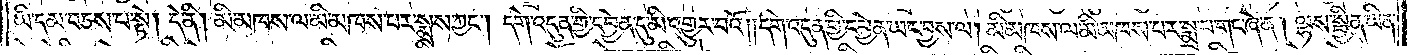ཡི་དམ་བཅས་པ་སྟེ། དེ་ནི། མི་མཁས་ལ་མི་མཁས་པར་སྨྲས་ཀྱང༌། དགེ་འདུན་གྱི་དབྱེན་དུ་མི་འགྱུར་བའོ། །དགེ་འདུན་གྱི་དབྱེན་ཡང་བྱས་ལ། མི་མཁས་ལ་མི་མཁས་པར་སྨྲ་བ་གང་ཞེ་ན། ལྷས་སྦྱིན་ཡིན་
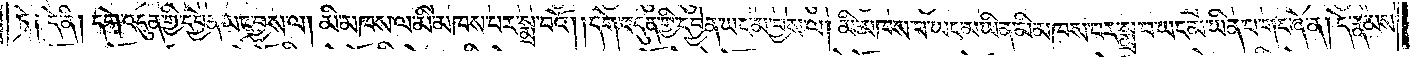ཏེ༑ དེ་ནི། དགེ་འདུན་གྱི་དབྱེན་ཡང་བྱས་ལ། མི་མཁས་ལ་མི་མཁས་པར་སྨྲ་བའོ། །དགེ་འདུན་གྱི་དབྱེན་ཡང་མ་བྱས་ལ། མི་མཁས་པ་ཡང་མ་ཡིན་མི་མཁས་པར་སྨྲ་བ་ཡང་མ་ཡིན་པ་གང་ཞེ་ན། དེ་རྣམས་
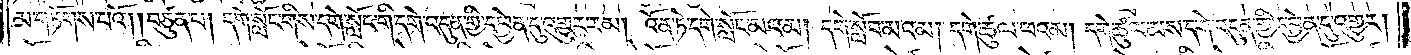མ་གཏོགས་པའོ། །བཙུན་པ། དགེ་སློང་གིས་དགེ་སློང་གི་དགེ་འདུན་གྱི་དབྱེན་དུ་འགྱུར་རམ། འོན་ཏེ་དགེ་སློང་མའམ། དགེ་སློབ་མའམ། དགེ་ཚུལ་ཕའམ། དགེ་ཚུལ་མས་དགེ་འདུན་གྱི་དབྱེན་དུ་འགྱུར།
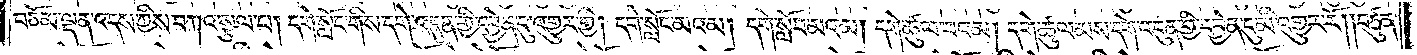བཅོམ་ལྡན་འདས་ཀྱིས་བཀའ་སྩལ་པ། དགེ་སློང་གིས་དགེ་འདུན་གྱི་དབྱེན་དུ་འགྱུར་གྱི། དགེ་སློང་མའམ། དགེ་སློབ་མའམ། དགེ་ཚུལ་ཕའམ། དགེ་ཚུལ་མས་དགེ་འདུན་གྱི་དབྱེན་དུ་མི་འགྱུར་རོ། །བཙུན་
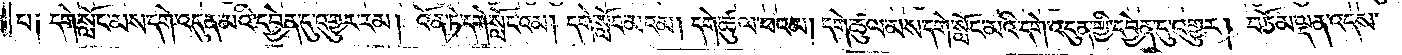པ། དགེ་སློང་མས་དགེ་འདུན་མའི་དབྱེན་དུ་འགྱུར་རམ། འོན་ཏེ་དགེ་སློང་འམ། དགེ་སློབ་མའམ། དགེ་ཚུལ་ཕའམ། དགེ་ཚུལ་མས་དགེ་སློང་མའི་དགེ་འདུན་གྱི་དབྱེན་དུ་འགྱུར། བཅོམ་ལྡན་འདས་
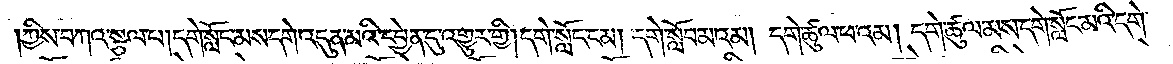ཀྱིས་བཀའ་སྩལ་པ། དགེ་སློང་མས་དགེ་འདུན་མའི་དབྱེན་དུ་འགྱུར་གྱི། དགེ་སློང་ངམ། དགེ་སློང་མའམ། དགེ་ཚུལ་ཕའམ། དགེ་ཚུལ་མས་དགེ་སློང་མའི་དགེ་
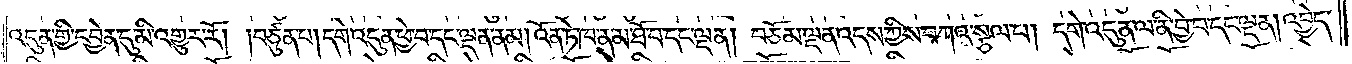འདུན་གྱི་དབྱེན་དུ་མི་འགྱུར་རོ། །བཙུན་པ། དགེ་འདུན་ཕྱེ་བ་དང་ལྡན་ནམ། འོན་ཏེ་ཁ་ན་མ་ཐོ་བ་དང་ལྡན། བཅོམ་ལྡན་འདས་ཀྱིས་བཀའ་སྩལ་པ། དགེ་འདུན་ལ་ནི་བྱེ་བ་དང་ལྡན། འབྱེད་
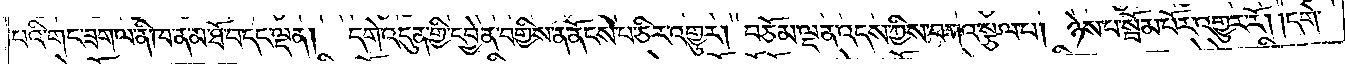པའི་གང་ཟག་ལ་ནི་ཁ་ན་མ་ཐོ་བ་དང་ལྡན། དགེ་འདུན་གྱི་དབྱེན་བགྱིས་ན་ནོངས་པ་ཅིར་འགྱུར། བཅོམ་ལྡན་འདས་ཀྱིས་བཀའ་སྩལ་པ། ཉེས་པ་སྦོམ་པོར་འགྱུར་རོ། །དགེ་
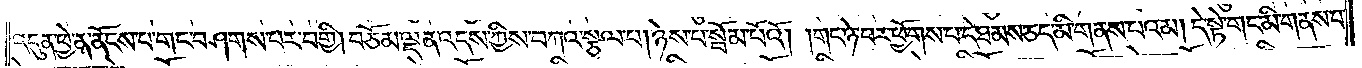འདུན་ཕྱེ་ན་ནོངས་པ་གང་བཤགས་པར་བགྱི། བཅོམ་ལྡན་འདས་ཀྱིས་བཀའ་སྩལ་པ། ཉེས་པ་སྦོམ་པོའོ། །གང་ཉེ་བར་ཕྱོགས་པ་དེ་ཐམས་ཅད་མི་གནས་པའམ། དེ་སྟེ་གང་མི་གནས་པ་
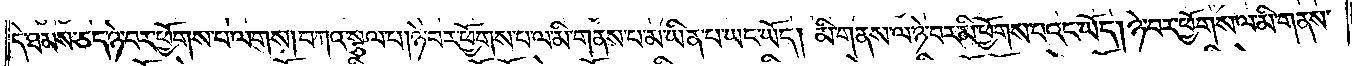དེ་ཐམས་ཅད་ཉེ་བར་ཕྱོགས་པ་ལགས། བཀའ་སྩལ་པ། ཉེ་བར་ཕྱོགས་པ་ལ་མི་གནས་པ་ལ་མ་ཡིན་པ་ཡང་ཡོད། མི་གནས་ལ་ཉེ་བར་མི་ཕྱོགས་པའང་ཡོད། ཉེ་བར་ཕྱོགས་ལ་མི་གནས་
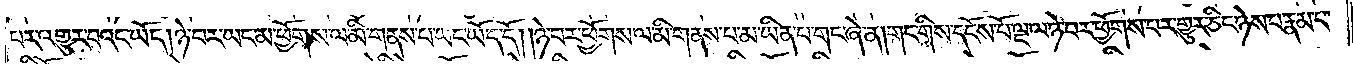པར་འགྱུར་བའང་ཡོད། ཉེ་བར་ཡང་མ་ཕྱོགས་ལ་མི་གནས་པ་ཡང་ཡོད་དོ། །ཉེ་བར་ཕྱོགས་ལ་མི་གནས་པ་མ་ཡིན་པ་གང་ཞེ་ན། གང་གིས་དངོས་པོ་ལྔ་ལ་ཉེ་བར་ཕྱོགས་པར་གྱུར་ཅིང་ཉེས་པ་རྣམ་པ་
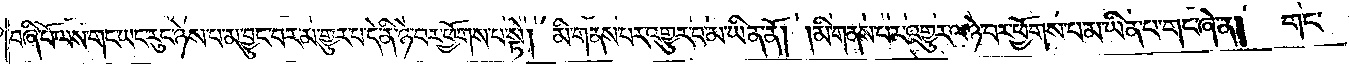བཞི་པོ་ལས་གང་ཡང་རུང་ཉེས་པ་མ་བྱུང་བར་མ་གྱུར་པ་དེ་ནི་ཉེ་བར་ཕྱོགས་པ་སྟེ། མི་གནས་པར་འགྱུར་བ་མ་ཡིན་ནོ། །མི་གནས་པར་འགྱུར་ལ་ཉེ་བར་ཕྱོགས་པ་མ་ཡིན་པ་གང་ཞེ་ན། གང་
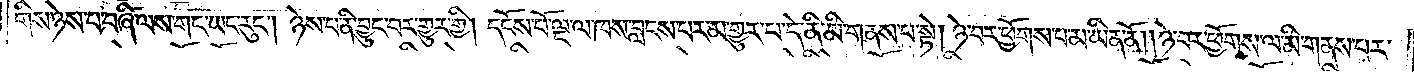གིས་ཉེས་པ་བཞི་ལས་གང་ཡང་རུང༌། ཉེས་པ་ནི་བྱུང་བར་གྱུར་གྱི། དངོས་པོ་ལྔ་ལ་ཁས་བླངས་པར་མ་གྱུར་པ་དེ་ནི་མི་གནས་པ་སྟེ། ཉེ་བར་ཕྱོགས་པ་མ་ཡིན་ནོ། །ཉེ་བར་ཕྱོགས་ལ་མི་གནས་པར་
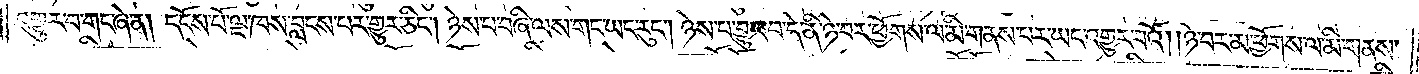འགྱུར་བ་གང་ཞེ་ན། དངོས་པོ་ལྔ་ཁས་བླངས་པར་གྱུར་ཅིང༌། ཉེས་པ་བཞི་ལས་གང་ཡང་རུང༌། ཉེས་པ་བྱུང་བ་དེ་ནི་ཉེ་བར་ཕྱོགས་ལ་མི་གནས་པར་ཡང་འགྱུར་བའོ། །ཉེ་བར་མ་ཕྱོགས་ལ་མི་གནས་
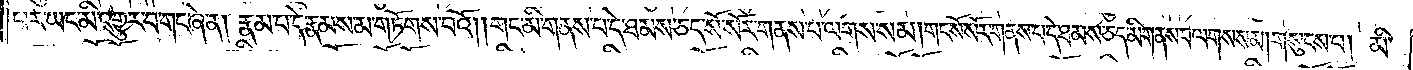པར་ཡང་མི་འགྱུར་བ་གང་ཞེ་ན། རྣམ་པ་དེ་རྣམས་མ་གཏོགས་པའོ། །གང་མི་གནས་པ་དེ་ཐམས་ཅད་སོ་སོར་གནས་པ་ལགས་སམ། གང་སོ་སོར་གནས་པ་དེ་ཐམས་ཅད་མི་གནས་པ་ལགས་སམ། གསུངས་པ། མི་
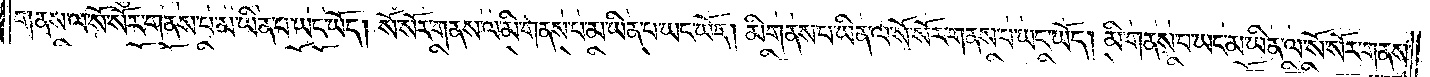གནས་ལ་སོ་སོར་གནས་པ་མ་ཡིན་པ་ཡང་ཡོད། སོ་སོར་གནས་ལ་མི་གནས་པ་མ་ཡིན་པ་ཡང་ཡོད། མི་གནས་པ་ཡིན་ལ་སོ་སོར་གནས་པ་ཡང་ཡོད། མི་གནས་པ་ཡང་མ་ཡིན་ལ་སོ་སོར་གནས་
